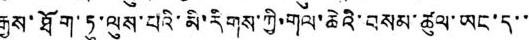རྒྱུས་ཐོག་ཏུ་ལུས་པའི་མི་རིགས་ཀྱི་གལ་ཆེའི་བསམ་ཚུལ་ཡང་ད་་
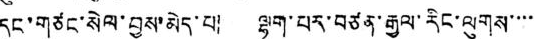དུང་གཙང་སེལ་བྱས་མེད་པ། ལྷག་པར་བཙན་རྒྱལ་རིང་ལུགས་་་་
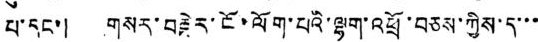པ་དང་། གསར་བརྗེར་ངོ་ལོག་པའི་ལྷག་འཕྲོ་བཅས་ཀྱིས་ད་་་
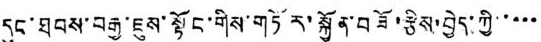དུང་ཐབས་བརྒྱ་ཇུས་སྟོང་གིས་གཏོར་སྐྱོན་བཟོ་རྩིས་བྱེད་ཀྱི་་་་་
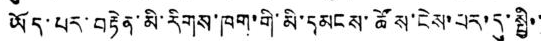ཡོད་པར་བརྟེན་མི་རིགས་ཁག་གི་མི་དམངས་ཚོས་ངེས་པར་དུ་སྤྱི་་
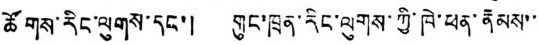ཚོགས་རིང་ལུགས་དང་། གུང་ཁྲན་རིང་ལུགས་ཀྱི་ཁེ་ཕན་རྣམས་་
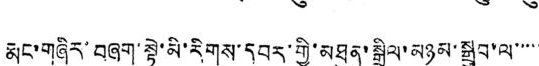རྨང་གཞིར་བཞག་སྟེ་མི་རིགས་དབར་གྱི་མཐུན་སྒྲིལ་མཉམ་སྒྲུབ་ལ་་་་་
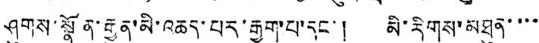ཤུགས་སྣོན་རྒྱུན་མི་འཆད་པར་རྒྱག་པ་དང་། མི་རིས་མཐུན་་་་
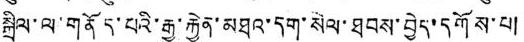སྒྲིལ་ལ་གནོད་པའི་རྒྱུ་རྐྱེན་མཐའ་དག་སེལ་ཐབས་བྱེད་དགོས་པ།
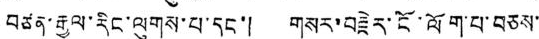བཙན་རྒྱལ་རིང་ལུགས་པ་དང་། གསར་བརྗེར་ངོ་ལོག་པ་བཅས་
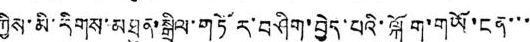ཀྱིས་མི་རིགས་མཐུན་སྒྲིལ་གཏོར་བཤིག་བྱེད་པའི་ལྐོག་གཡོ་ངན་་་
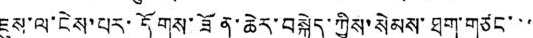ཇུས་ལ་ངེས་པར་དོགས་ཟོན་ཆེར་བསྐྱེད་ཀྱིས་སེམས་ཐག་གཙང་་་
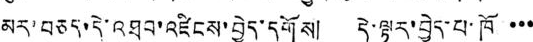མར་བཅད་དེ་འཐབ་འཛིངས་བྱེད་དགོས། དེ་ལྟར་བྱེད་པ་ཁོ ་་་
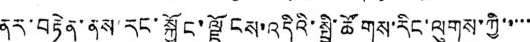ནར་བརྟེན་ནས་རང་སྐྱོང་ལྗོངས་འདིའི་སྤྱི་ཚོགས་རིང་ལུགས་ཀྱི་་་་་
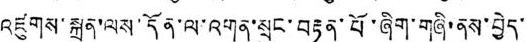འཛུགས་སྐྲུན་ལས་དོན་ལ་འགན་སྲུང་བརྟན་པོ་ཞིག་གཞི་ནས་བྱེད་་
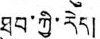ཐུབ་ཀྱི་རེད།
